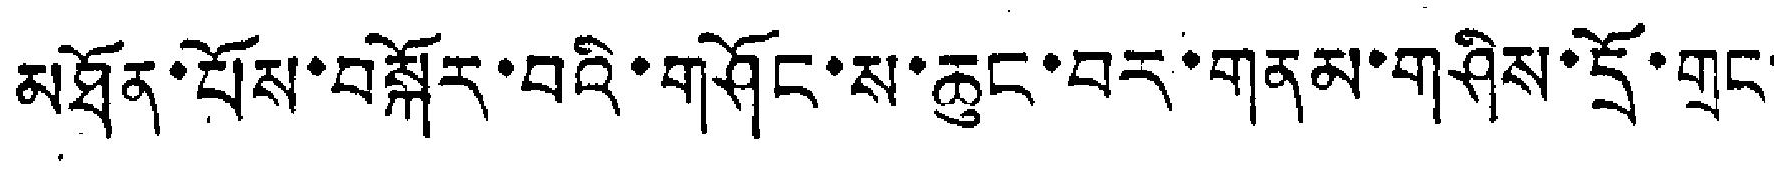མཐོན་པོས་བསྐོར་བའི་གཤོང་ས་ཆུང་བར་གནམ་གཤིས་དྲོ་གྲང་
